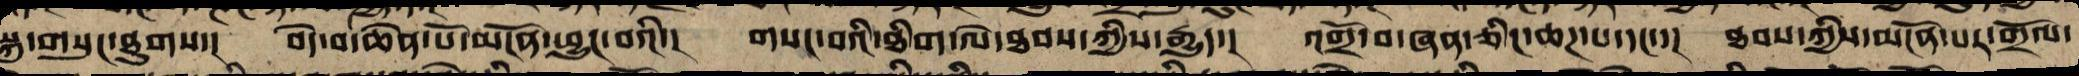སྐུ་གསུང་ཐུགས་། བདེ་བ་ཆེན་པོ་མངོན་ཕྱུང་བའི་། གསང་བའི་ཐིག་ལེ་ཐབས་ཀྱི་རྒྱུད་། འགྲོ་བ་ཞན་ཅིང་ཆཌ་པ་དང་་། ཐབས་ཀྱིས་མངོན་པར་གྲོལ་
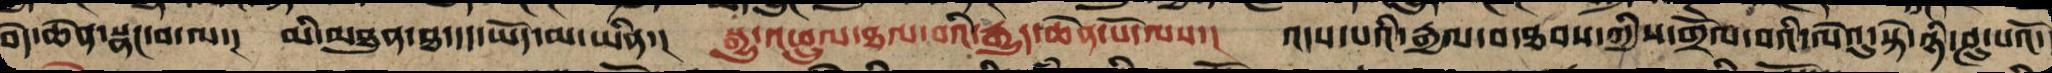བདེ་ཆེན་སྣང་བ་ལ་། མི་མཐུན་ཐ་དད་ཡོད་མ་ཡིན་། སྒྱུ་འཕྲུལ་ཐལ་བའི་རྒྱུད་ཆེན་པོ་ལས་། འདས་པའི་རྒྱལ་བ་ཐབས་ཀྱི་གྲོལ་བའི་ལེའུ་སྟེ་ཉི་ཤུ་པའོ།་
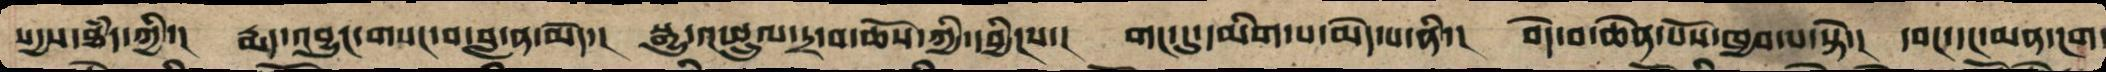སདྱས་ཐཾད་ཀྱི་།  རྨད་བྱུང་གསང་བ་བླ་ན་མེད་། སྒྱུ་འཕྲུལ་དྲ་བ་ཆོས་ཀྱི་དབྱིངས་། གང་དུ་དམིག་པ་མེད་པ་ནི་། བདེ་བ་ཆེན་པོས་ཁྱབ་པ་སྟེ་། དབང་དང་མན་ངག་
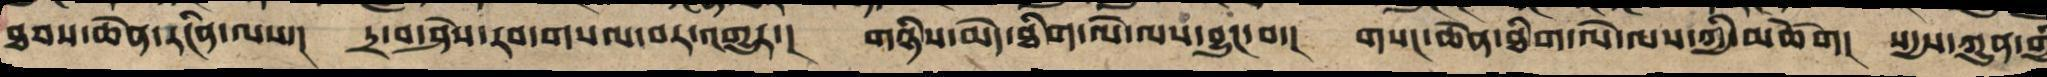ཐབས་ཆེན་རངིན་ལས་། དྲ་བ་ཤེས་རབ་གསལ་བར་འགྱུར་། གཉིས་མེད་ཐིག་ལེ་ལས་བྱུང་བ་། གསང་ཆེན་ཐིག་ལེ་ལས་ཀྱི་མཆོག། སདྱས་ཀུན་གྱི
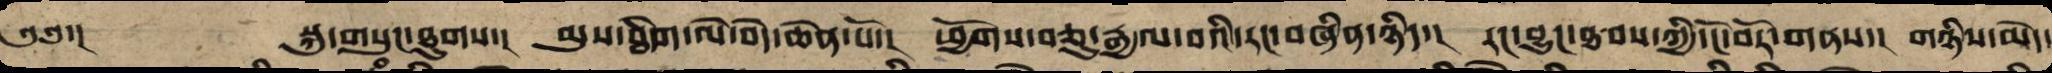༄༅་། སྐུ་གསུང་ཐུགས་། མུས་ཐིག་ལེ་བདེ་ཆེན་པོ་། ཕྱོགས་བཅུ་རྒྱལ་བའི་རང་བཞིན་ཉིད་། རང་བྱུང་ཐབས་ཀྱི་ངོ་བོར་གནས་། གཉིས་མེད་
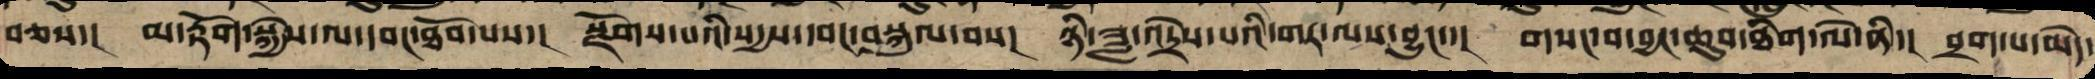བཅས་། མ་རྟོགས་སྐྱེས་ལ་དབང་ཐོབ་པས་། སྫོགས་པའི་སདྱས་དབང་བསྐུལ་བས་། ཉི་ཟླ་འདྲེས་པའི་གར་ལས་བྱུང་་། གསང་བའི་བྱང་ཆུབ་ཐིག་ལེ་ནི་། བྲག་པ་མེད་
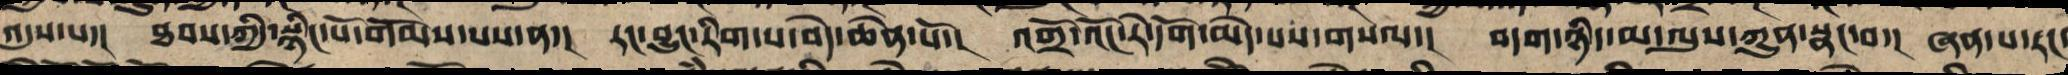འདུས་པ་། ཐབས་ཀྱི་སྙིང་པོ་གོམས་པས་ན་། རང་བྱུང་རིག་པ་བདེ་ཆེན་པོ་། འགྲོ་འོང་རེ་དོག་མེད་པས་གསལ་། བདག་ཉིད་མ་ལུས་ཀུན་སྣང་བ་། ཞན་པ་རང་
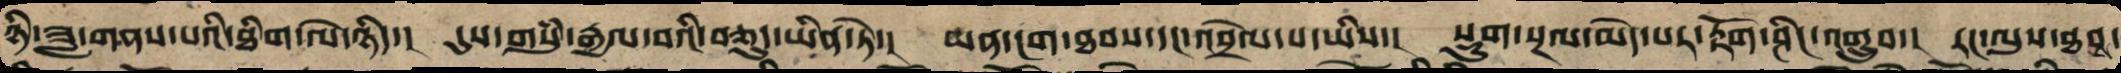ཉི་ཟླ་གནས་པའི་ཐིག་ལེ་ཉིད་། དུས་གསུཾ་རྒྱལ་བའི་བཅུད་ཡིན་ཏེ་། མན་ངག་ཐབས་དང་འབྲེལ་པ་ཡིས་། སྡུག་སྔལ་མེད་པར་རྟོག་ཤིང་འགྲུབ་། རང་ལུས་ཐབས་
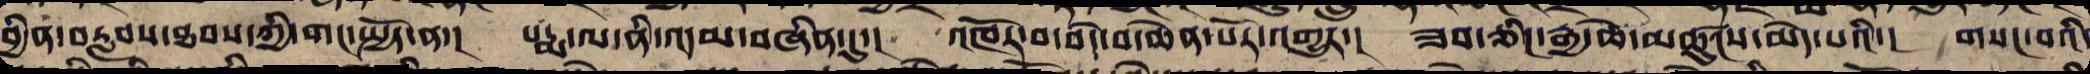བྱིན་བརླབས་ཐབས་ཀྱི་གང་སྤྱོད་ན་། པདྨ་ལ་ནི་འདམ་བཞིན་དུ་། འཁོར་བ་བདེ་བ་ཆེན་པོར་འགྱུར་། ཟབ་ཅིང་རྒྱ་ཆེ་མཚུངས་མེད་པའི་། གསང་བའི་
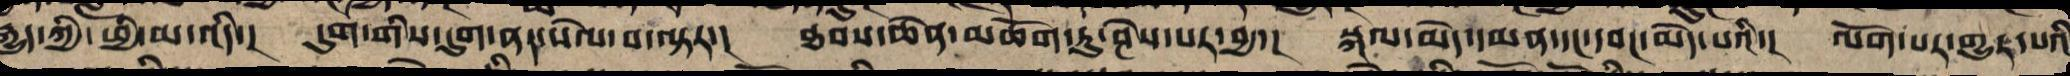རྒྱུད་ཀྱི་ཕྱི་མ་འདི་།  དུག་གིས་དུག་ནད་སེལ་བ་ལྟར་།  ཐབས་ཆེན་མཆོག་ཏུ་ཤེས་པར་བྱ་།  སྐལ་མེད་དམན་དང་དབང་མེད་པའི་། ལོག་པར་གྱུར་པའི
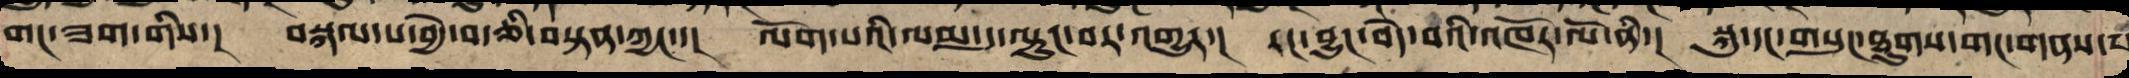གང་ཟག་གིས་། བསྐལ་པ་བྱེ་བ་ཅི་བསྟན་ཀྱང་། ལོག་པའི་ལམ་དུ་ལྟུང་བར་འགྱུར་། རང་བྱུང་བདེ་བའི་འཁོར་ལོ་ནི་། སྐུ་དང་གསུང་ཐུགས་གང་གནས་པ
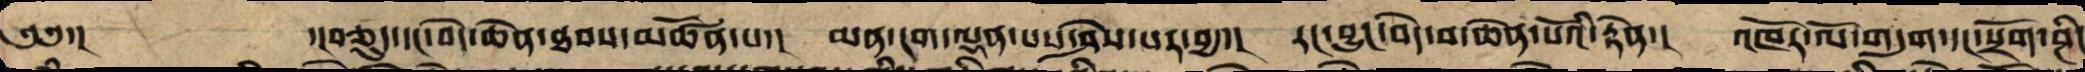༄༅་། ་།བཅུད་དང་བདེ་ཆེན་ཐབས་མཚོན་པ་། མན་ངག་ལྡན་པས་ཤེས་པར་བྱ་། རང་བྱུང་བདེ་བ་ཆེན་པོའི་རྟེན་། འཁོར་ལོ་གདུགས་དང་སྲོག་ཤིང་
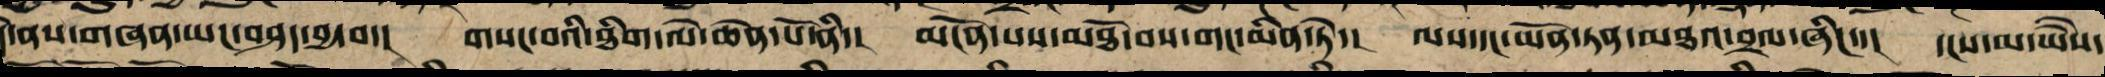དེ་ནས་གཞན་ཡང་བཤད་བྱ་བ་། གསང་བའི་ཐིག་ལེ་ཆེན་པོ་ནི་། མངོན་པས་མཐོང་བས་གང་མིན་ཏེ་། ལས་དང་ཡོན་ཏན་མཐའ་བྲལ་ཞིང་་། དྭངས་མ་ཡཻས་
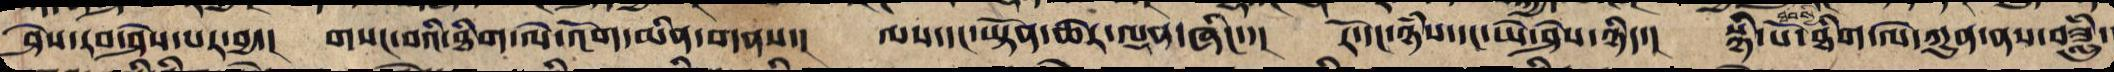ཤེས་རབ་ཤེས་པར་བྱ་། གསང་བའི་ཐིག་ལེ་འོག་མིན་གནས་། ལས་དང་ཡྟོན་ཆེར་ལྡན་ཞིང་། རོ་དང་ཉཾས་དང་ཡེ་ཤེས་ཉིད། སྙིང་པོ་ཐིག་ལེ་ཀུན་ནས་བཟླུཾ་
